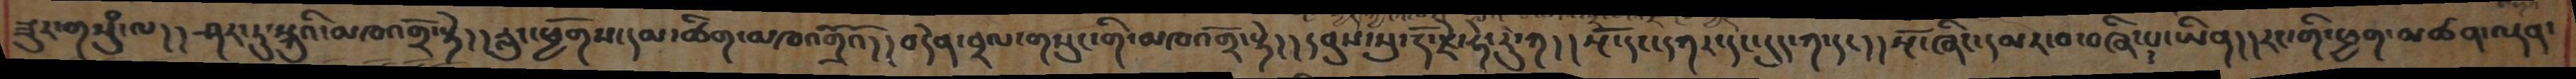ཟུར་གསུཾ་ལ། །ཤར་ཏུ་སྐུའི་མཁའགྲོ་སྟེ། །རླུང་ཕྱོགས་དམ་ཚིག་མཁའགྲོའོ། །བདེན་བྲལ་གསུང་གི་མཁའགྲོ་སྟེ། །དབུས་སུ་རྡོ་རྗེ་ཧེ་རུ་ཀ། །སྔོ་དང་དཀར་དང་དུད་ཀ་དང། །སྔོ་ཞིང་དམར་བ་བཞི་པ་ཡིན། །རང་གི་ཕྱག་མཚན་ལྡན་
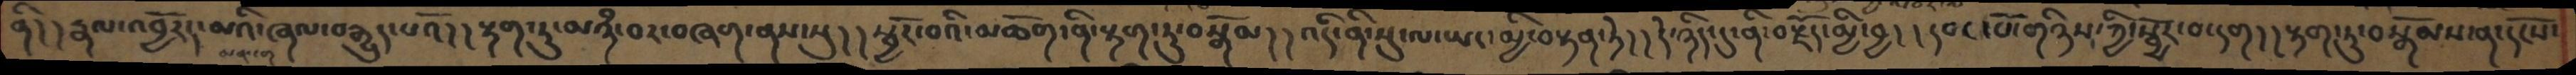ནི། །རྣལ་འབྱོརད་མའི་ཞལ་བརྒྱུད་པའོ། །རྟག་ཏུ་མཉཾ་བར་བཞག་ནས་སུ། །སྦྱོར་བའི་མཆོག་ནི་རྟག་ཏུ་བསྒོམ། །འདི་ནི་སུ་ལ་ཡང་མྱི་བསྟན་ཏེ། །དེ་ཉིད་དུ་ནི་བརྗོད་མྱི་བྱ། །དབང་པོ་གཉིས་ཀྱི་སྦྱོར་བ་དག། །རྟག་ཏུ་བསྒོམས་ན་དངོས་
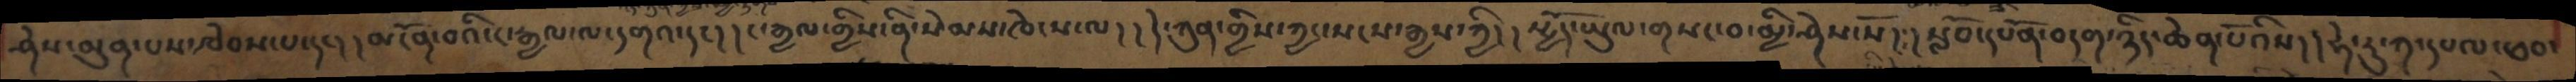ཤེས་མུན་པས་ཁེབས་པ་དང། །མངོན་བའི་ང་རྒྱལ་ལ་དགའ་དང། །ང་རྒྱལ་གྱིས་ནི་སེམས་ཁེངས་ལ། །དེ་ཀུན་གྱིས་ཀྱང་སངས་རྒྱས་ཀྱི། །སྤྱོད་ཡུལ་གསང་བ་མྱི་ཤེས་སོ། །སློབ་དཔོན་བདག་ཉིད་ཆེན་པོའིས། །ཧེ་རུ་ཀ་དཔལ་ཕབ་
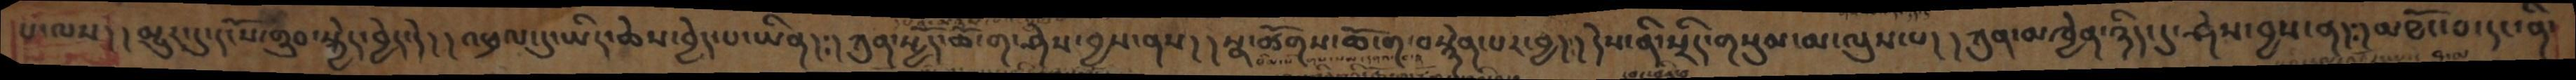པ་ལས། །མྱུར་དུ་དངོས་གྲུབ་སྐྱེད་བྱེད་དེ། །འཕྲལ་དུ་ཡིད་ཆེས་བྱེད་པ་ཡིན། །ཀུན་སྤྱོད་ཆོ་ག་ཤེས་བྱས་ནས། །སྣ་ཚོགས་ཆོ་ག་བསྙེན་པར་བྱ། །དེས་ནི་སྲིད་གསུམ་མ་ལུས་པ། །ཀུན་མཁྱེན་ཉིད་དུ་ཤེས་བྱས་ན། །མཐོང་བ་དང་ནི་
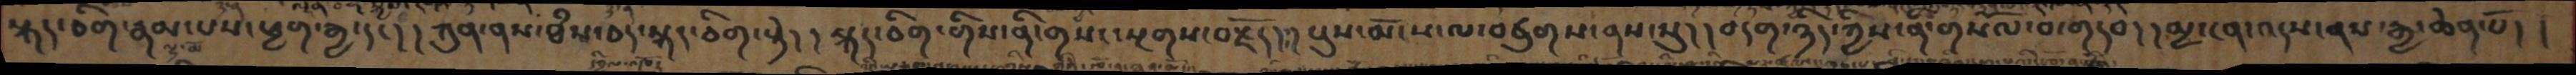སྐད་ཅིག་རྣམ་པས་ཕྱག་རྒྱ་དང། །ཀུན་ནས་ཐཾས་ཅད་སྐད་ཅིག་སྟེ། །སྐད་ཅིག་གིས་ནི་གསང་སྔགས་བརྗོད། །པུས་མོ་ས་ལ་བཙུགས་ནས་སུ། །བདག་ཉིད་ཀྱིས་ནི་གསོལ་བ་གདབ། །མྱ་ངན་འདས་ནས་རྒྱ་ཆེན་པོ། །
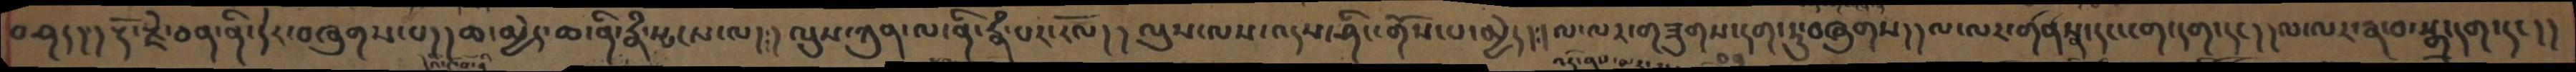བཤད། །རྡོ་རྗེ་ཅན་ནི་དེར་བཞུགས་པ། །ཆ་མྱེད་ཆ་ནི་རྣཾ་སྤངས་ལ། །ལུས་ཀུན་ལ་ནི་རྣཾ་པར་རོལ། །ལུས་ལས་འདས་ཤིང་གོས་པ་མྱེད། །ལ་ལར་གཟུགས་ཅན་དག་ཏུ་བཞུགས། །ལ་ལར་གནསྣ་དང་ངག་དག་དང། །ལ་ལར་རྣ་བ་སྒྲ་དག་དང།།
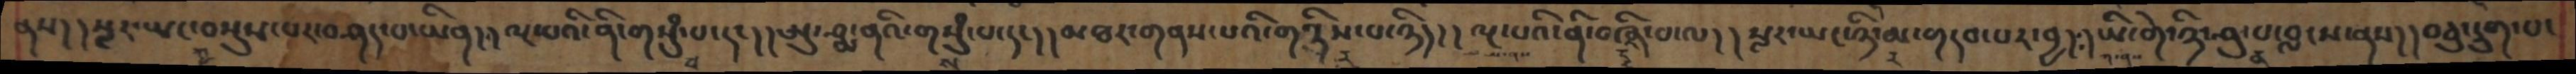ནས། །སླར་ཡང་བསྡུས་པར་བཤད་པ་ཡིན། །ལྔ་པའི་ནི་གསུཾ་པ་དང། །ཨུ་ཤྨ་ནའི་གསུཾ་པ་དང། །མཐར་གནས་པའི་གཉིས་པ་ཉིད། །ལྔ་པའི་ནི་བཞི་པ་ལ། །སླར་ཡང་ཉི་མ་གདབ་པར་བྱ། །ཡི་གེ་ཉི་ཤུ་པ་བླངས་ནས། །བཅུ་དྲུག་པ་
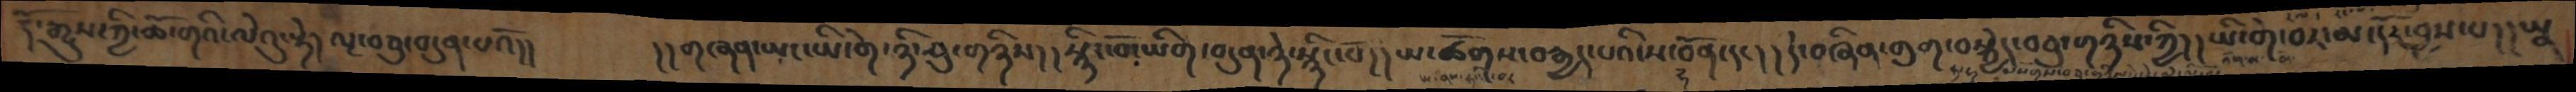རྡོ་རྒྱུས་ཀྱི་ཆོ་གའི་ལེའུ་སྟེ། ལྔ་བཅུ་བདུན་པའོ།།   །།གཞན་ཡང་ཡི་གེ་ཉི་ཤུ་གཉིས། །སྙིང་བོ་ཡིག་བདུན་ཉེ་སྙིང་པོ། །ཡ་ཚོགས་བརྒྱད་པའི་ས་བོན་དང། །དེ་བཞིན་གུག་བསྐྱེད་བཅུ་གཉིས་ཀྱི། །ཡི་གེ་བར་མ་དོར་བྱས་པ། །ཡན
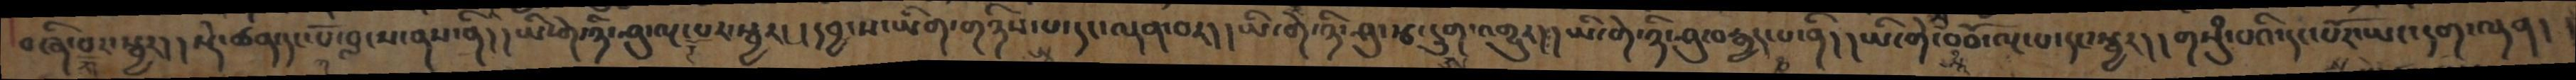བཞི་པར་སྦྱར། །སྡེ་ཚན་དང་པོ་བླངས་ནས་ནི། །ཡི་གེ་ཉི་ཤུ་ལྔ་པར་སྦྱར། །དབྱངས་ཡིག་གཉིས་པ་དང་ལྡན་བར། །ཡི་གེ་ཉི་ཤུ་རྩ་དྲུག་འགྱུར། །ཡི་གེ་ཉི་ཤུ་བརྒྱད་པ་ནི། །ཡི་གེ་བཅོ་ལྔ་པ་དང་སྦྱར། །གསུཾ་པའི་དང་པོར་ཡང་དག་ལྡན། །
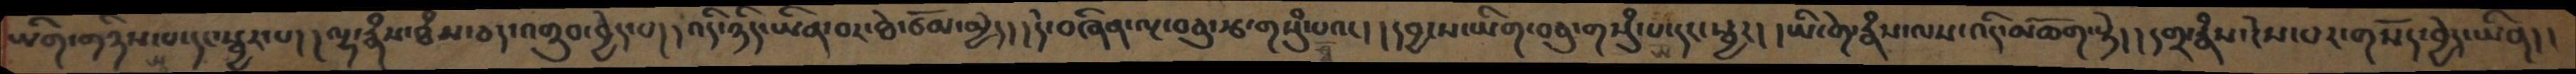ཡིག་གཉིས་པ་དང་སྦྱར་པ།།ལྷ་རྣཾས་ཐཾས་ཅད་འགྲུབ་བྱེད་པ།།འདི་ཉིད་ཡིན་བར་ཐེ་ཙོམ་མྱེད།།དེ་བཞིན་ལྔ་བཅུ་རྩ་གསུཾ་པའང།།དབྱངས་ཡིག་བཅུ་གསུཾ་པ་དང་སྦྱར།།ཡི་གེ་རྣཾས་ལས་འདི་མཆོག་སྟེ།།དགྲ་རྣཾས་ངེས་པར་གསོད་བྱེད་ཡིན།།
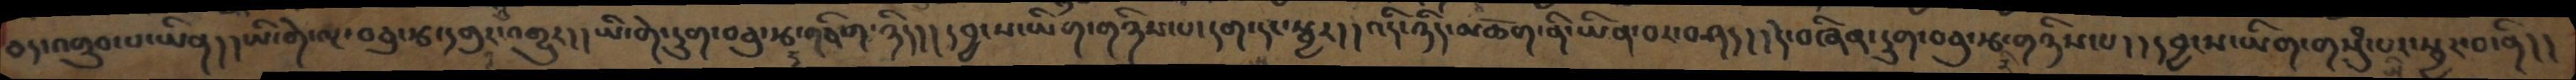ཅད་འགྲུབ་པ་ཡིན། །ཡི་གེ་ལྔ་བཅུ་རྩ་དགུར་འགྱུར། །ཡི་གེ་དྲུག་བཅུ་རྩ་གཅིག་ཉིད། །དབྱངས་ཡིག་གཉིས་པ་དག་དང་སྦྱར། །འདི་ཉིད་མཆོག་ནི་ཡིན་པར་བཤད། །དེ་བཞིན་དྲུག་བཅུ་རྩ་གཉིས་པ། །དབྱངས་ཡིག་གསུཾ་པར་སྦྱར་བ་ནི། །
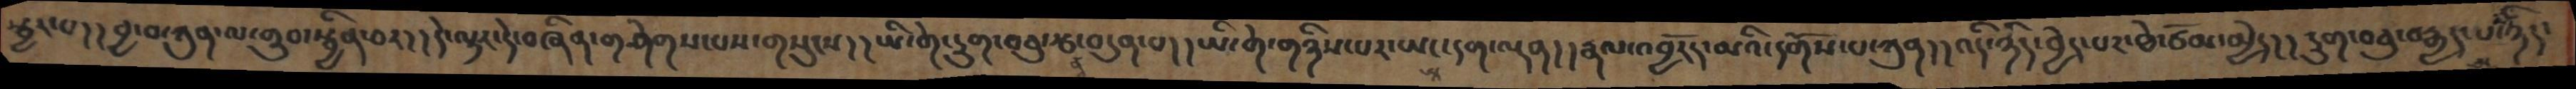སྦྱར་པ། །བྱ་བ་ཀུན་ལ་གྲུབ་སྦྱིན་བར། །དེ་ལྟར་དེ་བཞིན་གཤེགས་པས་གསུངས། །ཡི་གེ་དྲུག་བཅུ་རྩ་བདུན་པ། །ཡི་གེ་གཉིས་པར་ཡང་དག་ལྡན། །རྣལ་འབྱོརད་མའི་དགོས་པ་ཀུན། །འདི་ཉིད་བྱེད་པར་ཐེ་ཙོམ་མྱེད། །དྲུག་བཅུ་བརྒྱད་པ་ཉིད་
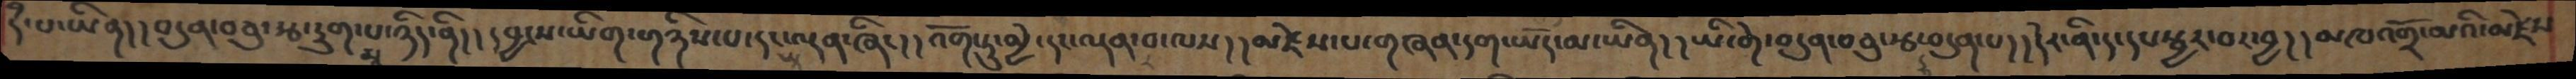རི་པ་ཡིན།།བདུན་བཅུ་རྩ་དྲུག་པ་ཉིད་ནི།།དབྱངས་ཡིག་གཉིས་པ་དང་ལྡན་ཞིང།།འོག་ཏུ་མྱེ་དང་ལྡན་པ་ལས།།མཛེས་པ་གཞན་དག་ཡོད་མ་ཡིན།།ཡི་གེ་བདུན་བཅུ་རྩ་བདུན་པ།།དེར་ནི་ད་དང་སྦྱར་བར་བྱ།།མཁའགྲོ་མའི་མཛེས
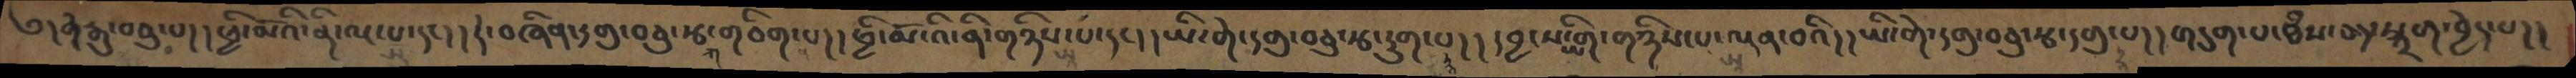༄།རྒརྒུ་བཅུ་པ། །ཕྱི་མོའི་ནི་ལྔ་པ་དང། །དེ་བཞིན་དགུ་བཅུ་རྩ་གཅིག་པ། །ཕྱི་མོ་འི་ནི་གཉིས་པ་དང། །ཡི་གེ་དགུ་བཅུ་རྩ་དྲུག་པ། །དབྱངས་ཡིག་གཉིས་པ་ལྡན་བའི། །ཡི་གེ་དགུ་བཅུ་རྩ་དགུ་པ། །གདུག་པ་ཐཾས་ཅད་སྐྲག་བྱེད་པ།།
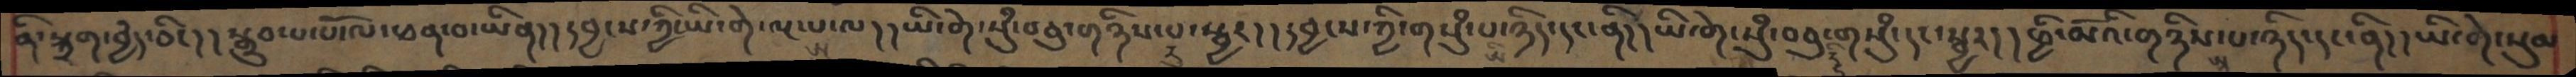ནི་སྐྲག་བྱེད་ཅིང།།སྒྲུབ་པ་པོ་ལ་ཕན་བ་ཡིན།།དབྱངས་ཀྱི་ཡི་གེ་ལྔ་པ་ལ།།ཡི་གེ་སུཾ་བཅུ་གཉིས་པ་སྦྱར།།དབྱངས་ཀྱི་གསུཾ་པ་ཉིད་དང་ནི།།ཡི་གེ་སུཾ་བཅུ་གསུཾ་དང་སྦྱར།།ཕྱི་མོའི་གཉིས་པ་ཉིད་དང་ནི།།ཡི་གེ་སུམ
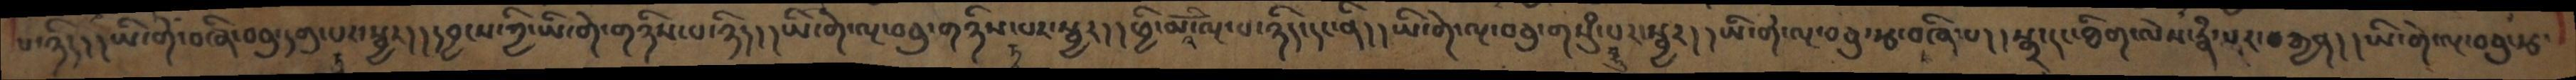པ་ཉིད། །ཡི་གེ་བཞི་བཅུ་དགུ་པར་སྦྱར། །དབྱངས་ཀྱི་ཡི་གེ་གཉིས་པ་ཉིད། །ཡི་གེ་ལྔ་བཅུ་གཉིས་པར་སྦྱར། །ཕྱི་མོའི་ལྔ་པ་ཉིད་དང་ནི། །ཡི་གེ་ལྔ་བཅུ་གསུཾ་པར་སྦྱར། །ཡི་གེ་ལྔ་བཅུ་རྩ་བཞི་པ། །སྒྲ་དང་ཐིག་ལེས་རྣཾ་པར་བརྒྱན། །ཡི་གེ་ལྔ་བཅུ་རྩ་
